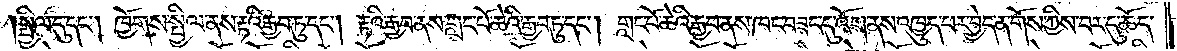སྤྱིལ་དུ་དང༌། ཁྱོགས་སྤྱིལ་ནས་རྟའི་རྒྱབ་ཏུ་དང༌། རྟའི་རྒྱབ་ནས་གླང་པོ་ཆེའི་རྒྱབ་ཏུ་དང༌། གླང་པོ་ཆེའི་རྒྱབ་ནས་ཁང་བཟང་དུ་འོག་ནས་འཁྱུད་པར་བྱེད་ན་གོས་ཀྱིས་བར་དུ་ཆོད་
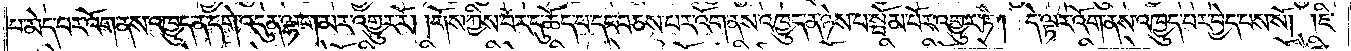པ་མེད་པར་འོག་ནས་འཁྱུད་ན་དགེ་འདུན་ལྷག་མར་འགྱུར་རོ། །གོས་ཀྱིས་བར་དུ་ཆོད་པ་དང་བཅས་པར་འོག་ནས་འཁྱུད་ན་ཉེས་པ་སྦོམ་པོར་འགྱུར་ཏེ། དེ་ལྟར་འོག་ནས་འཁྱུད་པར་བྱེད་པས་སོ། །ཇི་
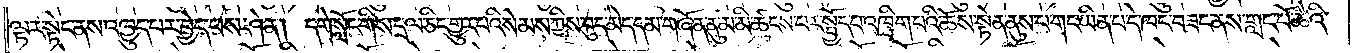ལྟར་སྟེང་ནས་འཁྱུད་པར་བྱེད་པས་ཤེ་ན། དགེ་སློང་གིས་དྲལ་ཅིང་གྱུར་པའི་སེམས་ཀྱིས་བུད་མེད་དམ་གཞོན་ནུ་མ་མི་ཚངས་པར་སྤྱོད་པ་འཁྲིག་པའི་ཆོས་སྟོན་ནུས་པ་གང་ཡིན་པ་དེ་ཁང་བཟང་ནས་གླང་པོ་ཆེའི་
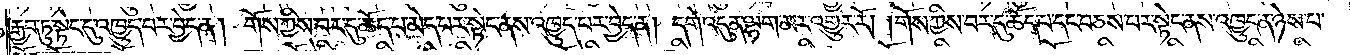རྒྱབ་ཏུ་སྟེང་དུ་འཁྱུད་པར་བྱེད་ན། གོས་ཀྱིས་བར་དུ་ཆོད་པ་མེད་པར་སྟེང་ནས་འཁྱུད་པར་བྱེད་ན། དགེ་འདུན་ལྷག་མར་འགྱུར་རོ། །གོས་ཀྱིས་བར་དུ་ཆོད་པ་དང་བཅས་པར་སྟེང་ནས་འཁྱུད་ན་ཉེས་པ་
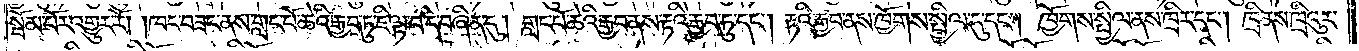སྦོམ་པོར་འགྱུར་རོ། །ཁང་བཟང་ནས་གླང་པོ་ཆེའི་རྒྱབ་ཏུ་ཇི་ལྟ་བ་དེ་བཞིན་དུ། གླང་པོ་ཆེའི་རྒྱབ་ནས་རྟའི་རྒྱབ་ཏུ་དང༌། རྟའི་རྒྱབ་ནས་ཁྱོགས་སྤྱིལ་དུ་དང༌། ཁྱོགས་སྤྱིལ་ནས་ཁྲིར་དང༌། ཁྲི་ནས་ཁྲིའུར་
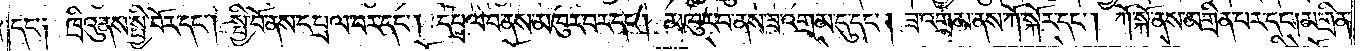དང་༑ ཁྲིའུ་ནས་སྤྱི་བོར་དང༌། སྤྱི་བོ་ནས་དཔྲལ་བར་དང༌། དཔྲལ་བ་ནས་མཁུར་བར་དང༌། མཁུར་བ་ནས་ཟ་འགྲམ་དུ་དང༌། ཟ་འགྲམ་ནས་ཀོ་སྐོར་དང༌། ཀོ་སྐོ་ནས་མགྲིན་པར་དང༌། མགྲིན་
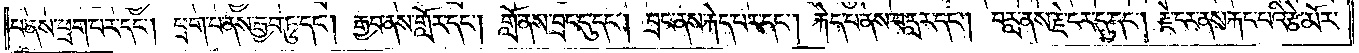པ་ནས་ཕྲག་པར་དང༌། ཕྲག་པ་ནས་རྒྱབ་ཏུ་དང༌། རྒྱབ་ནས་གློར་དང༌། གློ་ནས་བྲང་དུ་དང༌། བྲང་ནས་རྐེད་པར་དང༌། རྐེད་པ་ནས་བརླར་དང༌། བརླ་ནས་རྗེ་ངར་དུ་དང༌། རྗེ་ངར་ནས་རྐང་པའི་རྩེ་མོར་
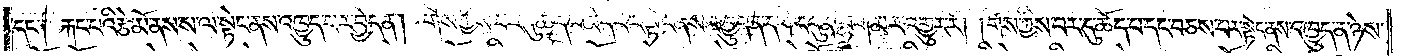དང་༑ རྐང་པའི་རྩེ་མོ་ནས་ས་ལ་སྟེང་ནས་འཁྱུད་པར་བྱེད་ན། གོས་ཀྱིས་བར་དུ་ཆོད་པ་མེད་པར་སྟེང་ནས་འཁྱུད་ན་དགེ་འདུན་ལྷག་མར་འགྱུར་རོ། །གོས་ཀྱིས་བར་དུ་ཆོད་པ་དང་བཅས་པར་སྟེང་ནས་འཁྱུད་ན་ཉེས་
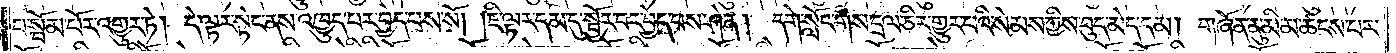པ་སྦོམ་པོར་འགྱུར་ཏེ། དེ་ལྟར་སྟེང་ནས་འཁྱུད་པར་བྱེད་པས་སོ། །ཇི་ལྟར་དམ་དུ་སྦྱོར་བར་བྱེད་པས་ཤེ་ན། དགེ་སློང་གིས་དྲལ་ཅིར་གྱུར་པའི་སེམས་ཀྱིས་བུད་མེད་དམ། གཞོན་ནུ་མི་མ་ཚངས་པར་
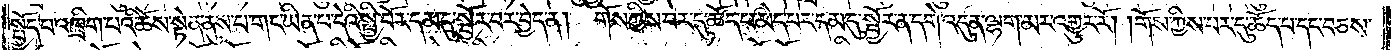སྤྱོད་པ་འཁྲིག་པའི་ཆོས་སྟོན་ནུས་པ་གང་ཡིན་པ་དེའི་སྤྱི་བོར་དམ་དུ་སྦྱོར་བར་བྱེད་ན། གོས་ཀྱིས་བར་དུ་ཆོད་པ་མེད་པར་དམ་དུ་སྦྱོར་ན་དགེ་འདུན་ལྷག་མར་འགྱུར་རོ། །གོས་ཀྱིས་བར་དུ་ཆོད་པ་དང་བཅས་
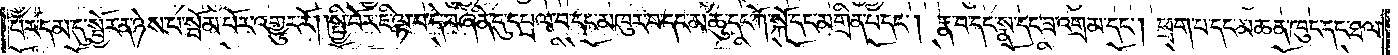པར་དམ་དུ་སྦྱོར་ན་ཉེས་པ་སྦོམ་པོར་འགྱུར་རོ། །སྤྱི་བོར་ཇི་ལྟ་བ་དེ་བཞིན་དུ་དཔྲལ་བ་དང་མཁུར་བ་དང་མཆུ་དང་ཀོ་སྐོ་དང་མགྲིན་པ་དང༌། རྣ་བ་དང་སྣ་དང་ཟ་འགྲམ་དང༌། ཕྲག་པ་དང་མཆན་ཁུང་དང་ཐལ་
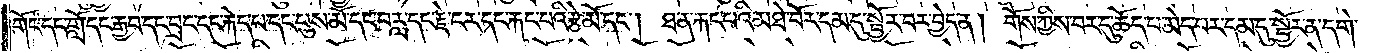གོང་དང་གློ་དང་རྒྱབ་དང་བྲང་དང་རྐེད་པ་དང་པུས་མོ་དང་བརླ་དང་རྗེ་ངར་དང་རྐང་པའི་རྩེ་མོ་དང༌། ཐ་ན་རྐང་པའི་མཐེ་བོར་དམ་དུ་སྦྱོར་བར་བྱེད་ན། གོས་ཀྱིས་བར་དུ་ཆོད་པ་མེད་པར་དམ་དུ་སྦྱོར་ན་དགེ་
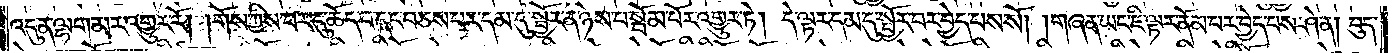འདུན་ལྷག་མར་འགྱུར་རོ། །གོས་ཀྱིས་བར་དུ་ཆོད་པ་དང་བཅས་པར་དམ་དུ་སྦྱོར་ན་ཉེས་པ་སྦོམ་པོར་འགྱུར་ཏེ། དེ་ལྟར་དམ་དུ་སྦྱོར་བར་བྱེད་པས་སོ། །གཞན་ཡང་ཇི་ལྟར་ནོམ་པར་བྱེད་པས་ཤེ་ན། བུད་
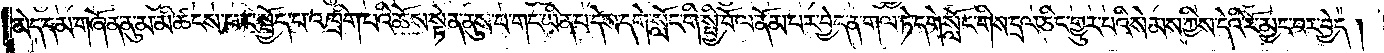མེད་དམ་གཞོན་ནུ་མ་མི་ཚངས་པར་སྤྱོད་པ་འཁྲིག་པའི་ཆོས་སྟོན་ནུས་པ་གང་ཡིན་པ་དེས་དགེ་སློང་གི་སྤྱི་བོ་ལ་ནོམ་པར་བྱེད་ན་གལ་ཏེ་དགེ་སློང་གིས་དྲལ་ཅིང་གྱུར་པའི་སེམས་ཀྱིས་དེའི་རོ་མྱང་བར་བྱེད།
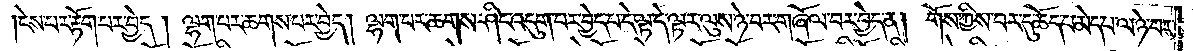།ངེས་པར་རྟོག་པར་བྱེད། ལྷག་པར་ཆགས་པར་བྱེད། ལྷག་པར་ཆགས་ཤིང་འདུག་པར་བྱེད་པ་དེ་ལྟ་དེ་ལྟར་ལུས་ཉེ་བར་གཞོལ་བར་བྱེད་ན། གོས་ཀྱིས་བར་དུ་ཆོད་པ་མེད་པ་ལ་ཉེ་བར་
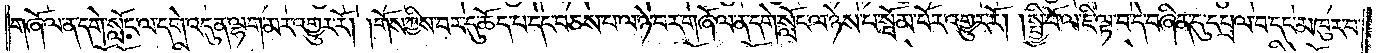གཞོལ་ན་དགེ་སློང་ལ་དགེ་འདུན་ལྷག་མར་འགྱུར་རོ། །གོས་ཀྱིས་བར་དུ་ཆོད་པ་དང་བཅས་པ་ལ་ཉེ་བར་གཞོལ་ན་དགེ་སློང་ལ་ཉེས་པ་སྦོམ་པོར་འགྱུར་རོ། །སྤྱི་བོ་ལ་ཇི་ལྟ་བ་དེ་བཞིན་དུ་དཔྲལ་བ་དང་མཁུར་བ་
